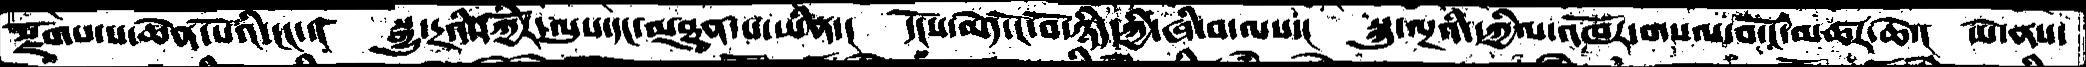སྫོགས་པ་ཆེན་པོའི་ངང་་།  སྒྱུ་དྲའི་དཀྱིརོ་ལུས་དང་མཐུན་པ་ཡིན་།  དངོས་མེད་ངོ་བོ་ཉིད་ཀྱི་ཞི་བ་ལས་།  སྐུ་ལྔའི་དཀྱིལ་འཁོར་གསལ་བ་ངོ་མཚར་ཆེ་།  ཡེ་ནས་
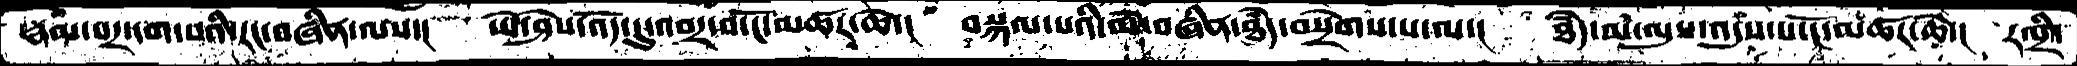རྣམ་པར་དག་པའི་རང་བཞིན་ལས་།  ཡེ་ཤེས་འོད་དུ་འབར་བ་ངོ་མཚར་ཆེ་།  བསྐལ་པའི་མེ་བཞིན་ཐཾད་བསྲེགས་པ་ལ་།  ཐཾད་མ་ལུས་འདུས་པ་ངོ་མཚར་ཆེ་།  རལྲི་
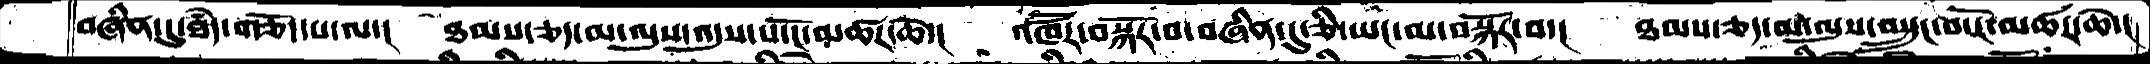བཞིན་དུ་ཐཾད་གཅོད་པ་ལ་།  ཐམས་ཅད་མ་ལུས་འདུས་པ་ངོ་མཚར་ཆེ་།  འཁཽར་བསྐོར་བ་བཞིན་དུ་ཅི་ཡང་མ་བསྐོར་བ་།  ཐམས་ཅད་མ་ལུས་བསྲུང་བ་ངོ་མཚར་ཆེ་།
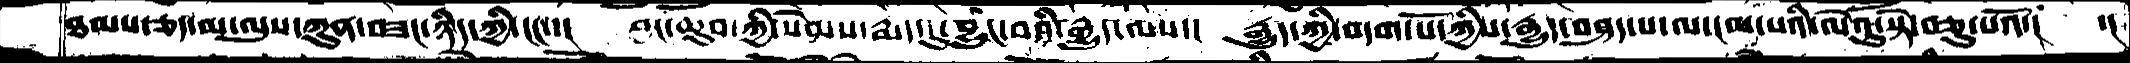ཐམས་ཅད་མ་ལུས་ཀུན་བཟང་ཉིད་ཀྱི་ངང་་།  བྱང་ཆུབ་ཀྱི་སེམས་རྨད་དུ་བྱུང་བའི་རྒྱུད་ལས་།  རྒྱུད་ཀྱི་བདག་པོ་ཀྱིས་རྒྱུད་བཤད་པ་ལ་ངམ་པའི་ལེའུ་སྟེ་བཅུ་པའོ་།   ་།
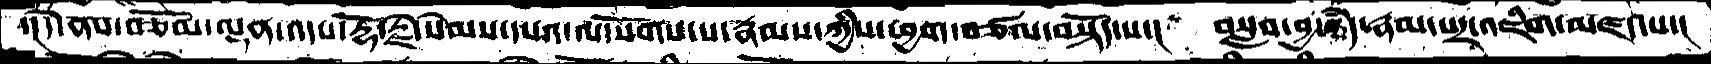་།དེ་ནས་བཅོམ་ལྡན་འདས་རྡོ་རྗེ་སེམས་དཔའ་ལ་སོགས་པ་རྣམས་ཀྱིས་ཕྱག་བཙལ་བསྟོད་པ་།   བསླབ་བྱ་ཉིད་རྣམ་པར་འཇིག་མཛད་པ་།
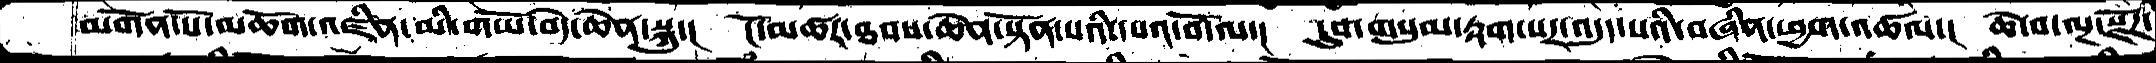མགོན་པོ་མཆོག་འཛིན་མི་གཡོ་བདེ་ཆེན་སྐུ།  ངོ་མཚར་ཐབས་ཆེན་སྟོན་པའི་དཔའ་བོ་ལ་།  དུས་གསུམ་རྟག་པར་འདུད་པའི་བཞིན་ཕྱག་འཚལ་།  ཆེ་བ་ལྔ་སྫོཌ་
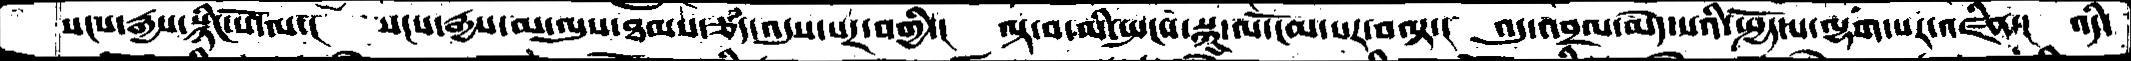སངས་རྒྱས་སྙིང་པོ་ལ་།  སངས་རྒྱས་མ་ལུས་ཐམས་ཅད་འདུས་པར་བགྱི་།  ལྟ་བ་མི་སྤངས་སྐུ་ལ་ངོམ་པར་བལྟ་།  འདུ་འབྲལ་མེད་པའི་སྤྱོད་པ་ལྷག་པར་འཛིན་།  འདི་
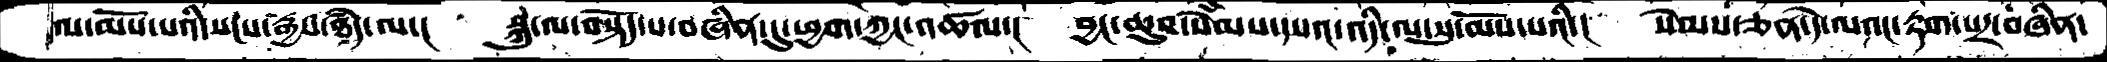ལ་མོས་པའི་སངས་རྒྱས་ཐཾད་ལ་།  སྐུ་ལ་བསྟོད་པ་བཞིན་དུ་ཕྱག་ཀྱང་འཚལ་།  བྱང་ཆུབ་སེམས་དཔའ་འདི་ལ་སུ་མོས་པའི་།  སེམས་ཅན་དེ་ལའང་རྟག་པར་བཞིན་
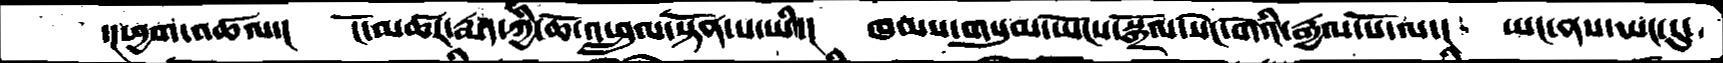་།ཕྱག་འཚལ་།  ངོ་མཚར་རྨད་ཀྱི་ཆོ་འཕྲུལ་སྟོན་པ་ཡི་།  ཁམས་གསུམ་ཡོངས་སྒྲོལ་སེང་གེའི་རྒྱལ་པོ་ལ་།  ཡང་ནས་ཡང་དུ་
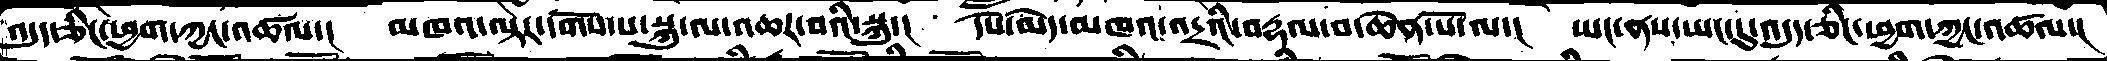འདུད་ཅིང་ཕྱག་ཀྱང་འཚལ་།  མཁའ་ལྟར་དགོས་པ་སྐུ་ལ་འཆར་བའི་སྐུ་།  དཔེ་མེད་མཁའ་འདྲའི་བརྡལ་བ་ཆེན་པོ་ལ་།  ཡང་ནས་ཡང་དུ་འདུད་ཅིང་ཕྱག་ཀྱང་འཚལ་།
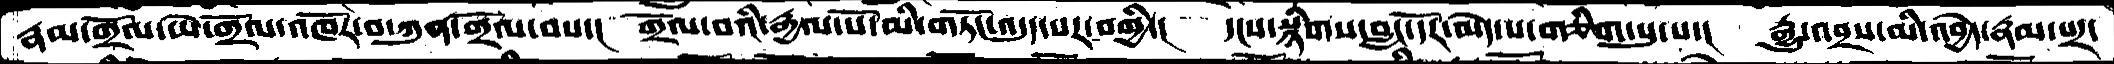རྣམ་གྲོལ་ཡེ་གྲོལ་འཁོར་བ་ཀུན་གྲོལ་བས་།  གྲོལ་བའི་རྒྱལ་པོ་མི་གཏོང་འདུད་པར་བགྱི་།  ་།ས་སྙིགས་བླང་དོར་མེད་པ་གཅིག་པུ་པ་།  རྒྱུ་འབྲས་མི་འབྱེད་རྣམ་པར་
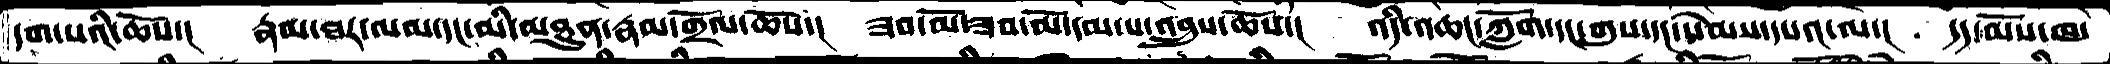དག་པའི་ཆོས་།  རྣམ་ཐར་ལམ་དང་མི་མཐུན་རྣམ་གྲོལ་ཆོས་།  ཟབ་མོ་ཟབ་མོ་དམ་པ་འབྲུས་ཆོས་།  འདི་འཆང་ཀློག་དང་གུས་དང་སེམས་དཔའ་ལ་།  དད་མོས་ཁ་
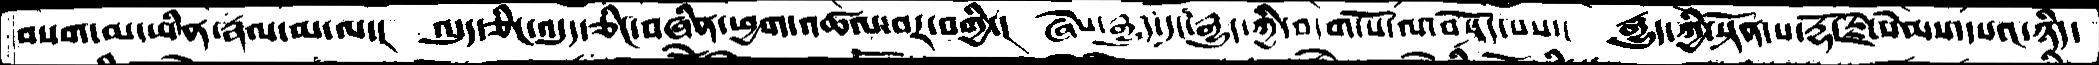བསག་མ་ཡིན་རྣལ་མ་ལ་།  ལུད་ཅིང་འདུད་ཅིང་བཞིན་ཕྱག་འཚལ་བར་བགྱི་།  ཞེས་རྒྱུད་དང་རྒྱད་ཀྱི་བདག་པོ་ལ་བསྟོད་པས་།  རྒྱུད་ཀྱི་སྟོན་པ་རྡོ་རྗེ་སེམས་དཔའ་ཉིད་
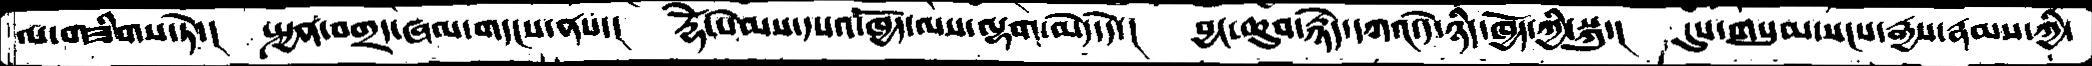ལ་གཟིགས་ཏེ་།  སྤྱན་བགྲད་ཞལ་གདངས་ནས་།  རྡོེ་སེམས་དཔའ་ཁྱོད་ལས་ལྷག་མེད་དེ་།  བྱང་ཆུབ་རྙེད་དཀའ་དེ་ཉིད་ཁྱོད་ཀྱི་སྐུ་།  དུས་གསུམ་སངས་རྒྱས་རྣམས་ཀྱི་
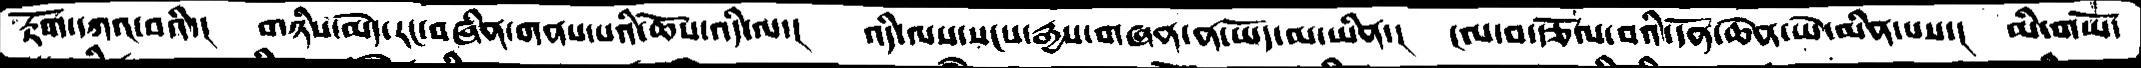རྟོག་དཀའ་བའི་།  གཉིས་མེད་རང་བཞིན་གནས་པའི་ཆོས་འདི་ལ་།  འདི་ལས་སངས་རྒྱས་གཞན་ན་ཡོད་མ་ཡིན་།  ངལ་བ་རྩོལ་བའི་དོན་ཆེན་ཡེ་མིན་པས་།  མི་གཡོ་
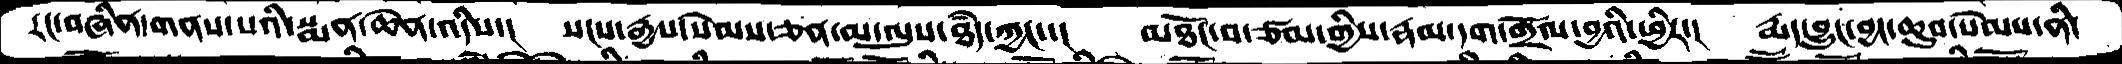རང་བཞིན་གནས་པའི་སྨན་ཆེན་འདིས་།  སངས་རྒྱས་སེམས་ཅན་མ་ལུས་ཐཾད་ཀྱང་་།  མཐོང་བ་ཙམ་གྱིས་རྣམ་དག་གྲོལ་བྱའི་ཕྱིར་།  རྨད་བྱུང་བྱང་ཆུབ་སེམས་ནི་
